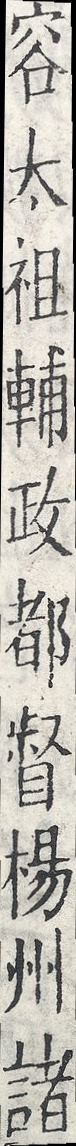容太祖輔政都督楊州諸
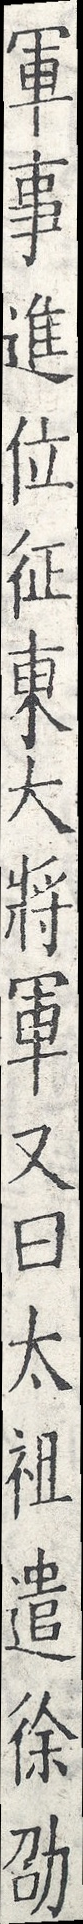軍事進位征東大將軍又曰太祖遣徐劭
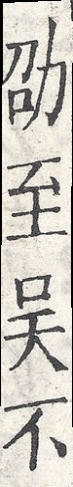劭至吳不
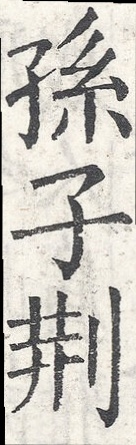孫子荊
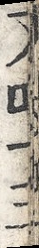文四十三
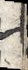十
